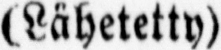(Lähetetty).
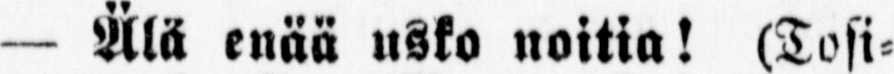— Älä enää usko noitia! (Tosi-
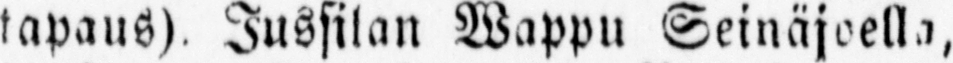tapaus). Jussilan Wappu Seinäjoella,
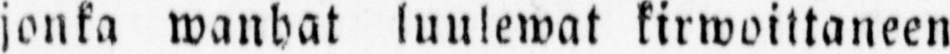jonka wanhat luulewat kirwoittaneen
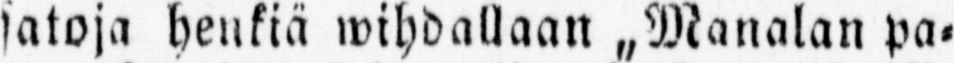satoja henkiä wihdallaan „Manalan pa-
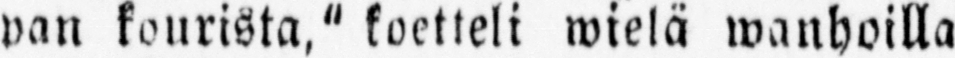pan kourista." koetteli wielä wanhoilla
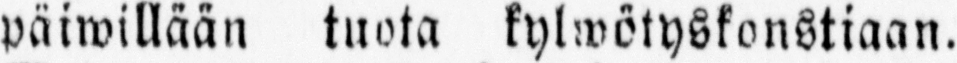päiwillään tuota kylwötyskonstiaan.
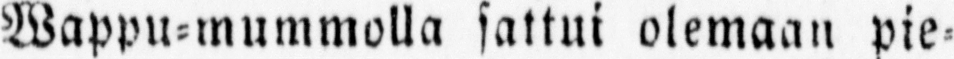Wappu-mummolla sattui olemaan pie-
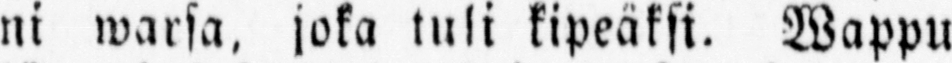ni warsa, joka tuli kipeäksi. Wappu
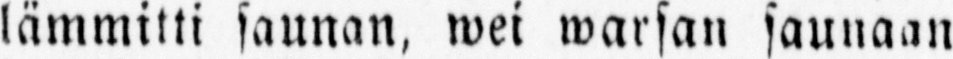lämmitti saunan, wei warsan saunaan
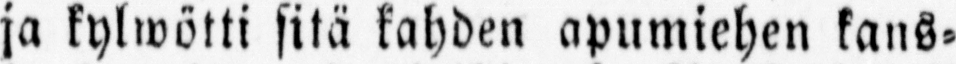ja kylwötti sitä kahden apumiehen kans-
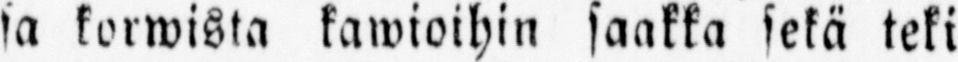sa korwista kawioihin saakka sekä teki
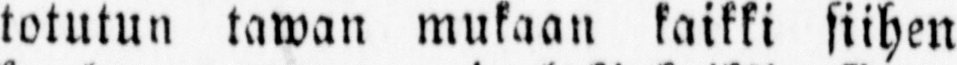totutun tawan mukaan kaikki siihen
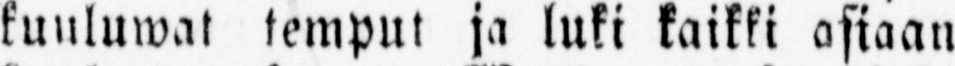kuuluwat temput ja luki kaikki asiaan
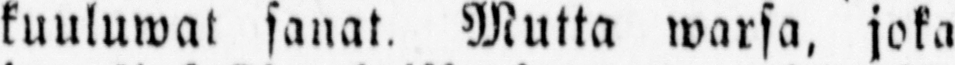kuuluwat sanat. Mutta warsa, joka
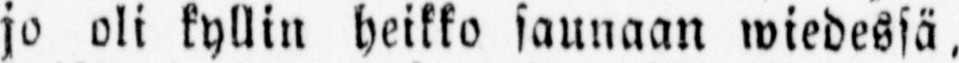jo oli kyllin heikko saunaan wiedessä,
